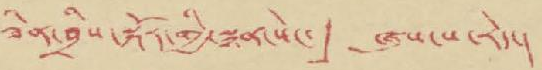ཟིན་བྲིས་སྐོར་གྱི་སྙན་སེང་」 ཞུས་པ་རེད་།
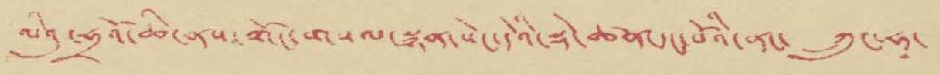ལིའུ་ཧྲའོ་ཆི་ནས་གོང་གསལ་སྙན་སེང་དེའི་སྡེ་ཚན་དང་པོའི་ནང་ ཀྲུང་ཧྭ་
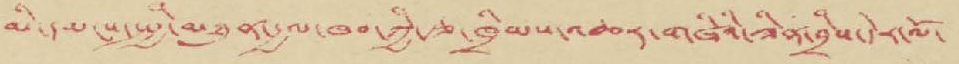མི་དམངས་སྤྱི་མཐུན་རྒྱལ་ཁབ་ཀྱི་རྩ་ཁྲིམས་འཆར་གཞིའི་ཟིན་བྲིས་དེར་ལོ་
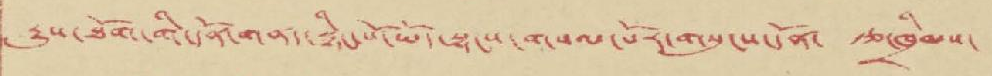རྒྱུས་ཐོག་གི་དོན་གནད་སྙིང་པོ་ཡོད་སྟངས་གསལ་པོར་གསུངས་དོན་ རྩ་ཁྲིམས་
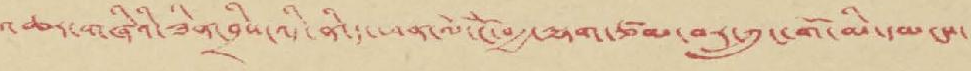འཆར་གཞིའི་ཟིན་བྲིས་འདི་ནི་དང་ཕན་ལོ་ངོ་བརྒྱ་ལྷག་ཙམ་བར་ཀྲུང་གོ་མི་དམངས་
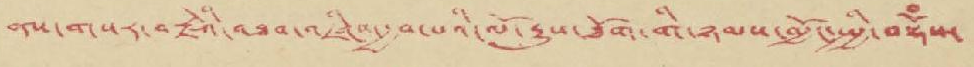ནས་གསར་བརྗེའི་འཐབ་འཛིང་བྱས་པའི་ལོ་རྒྱུས་ཐོག་གི་ཉམས་མྱོང་སྤྱི་བསྡོཾས་
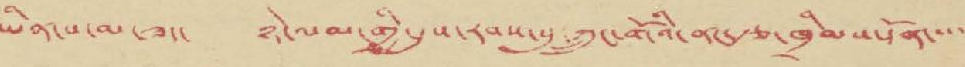ཡིན་པ་མ་ཟད་ ཉེ་ལམ་གྱི་དུས་རབས་སུ་ཀྲུང་གོའི་ནང་རྩ་ཁྲིམས་དོན་
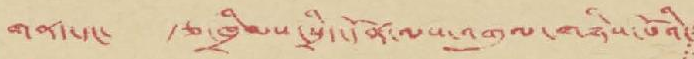གནད་དང་ རྩ་ཁྲིམས་སྲིད་དོན་ལས་འགུལ་གཉིས་པོའི་
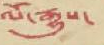ལོ་རྒྱུས་
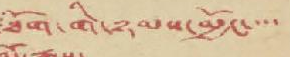ཐོག་གི་ཉམས་མྱོང་་་་
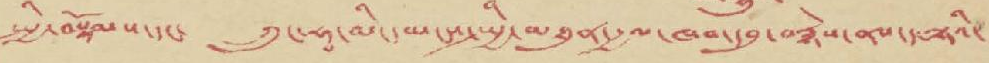སྤྱི་བསྡོམས་དང་ ཀྲུང་ཧྭ་མི་དམངས་སྤྱི་མཐུན་རྒྱལ་ཁབ་དབུ་བརྙེས་ནས་ད་ལྟའི་
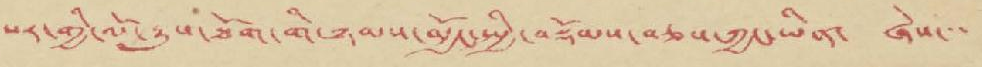པར་གྱི་ལོ་རྒྱུས་ཐོག་གི་ཉམས་མྱོང་སྤྱི་བསྡོམས་བཅས་ཀྱང་ཡིན་ ཞེས་་་
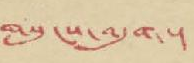གསུངས་འདུག་།
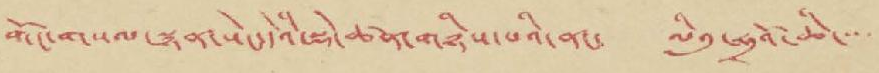གོང་གསལ་སྙན་སེང་དེའི་སྡེ་ཚན་གཉིས་པའི་ནང་ ལིའུ་ཧྲའོ་ཆི་་་
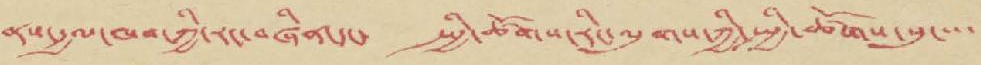ནས་རྒྱལ་ཁབ་ཀྱི་རང་བཞིན་དང་ སྤྱི་ཚོགས་རིང་ལུགས་ཀྱི་སྤྱི་ཚོགས་སུ་་་་
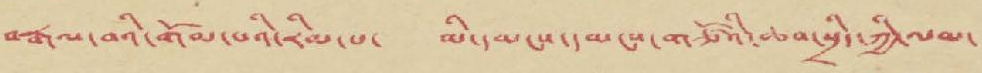བརྒལ་བའི་གོམ་པའི་རིམ་པ་ མི་དམངས་དམངས་གཙོའི་ཆབ་སྲིད་ཀྱི་ལམ་
